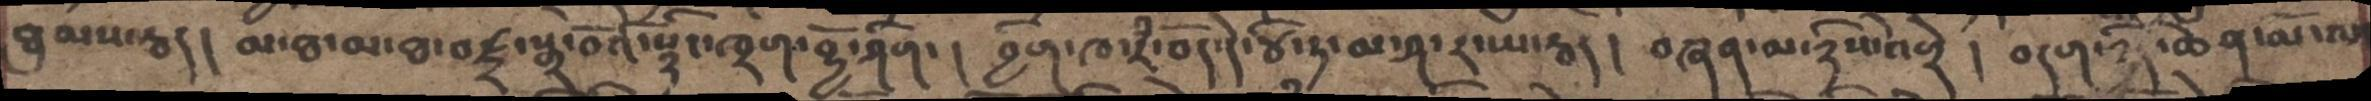ཐུམས་རྦད་། མ་ཐ་མ་ཐ་བཛྲ་སྒྲ་བོའི་སྙིང་ཁྲག་བྷྱོ་ཤིག་། བྱིག་ཁ་རྃ་བོད་དེ་ཙི་ཏ་མ་ཤ་ར་ཡ་རྦད། བཞན་མ་ཉིས་འགྲེ། བདག་ཉིད་ཆེན་མོ་ལ
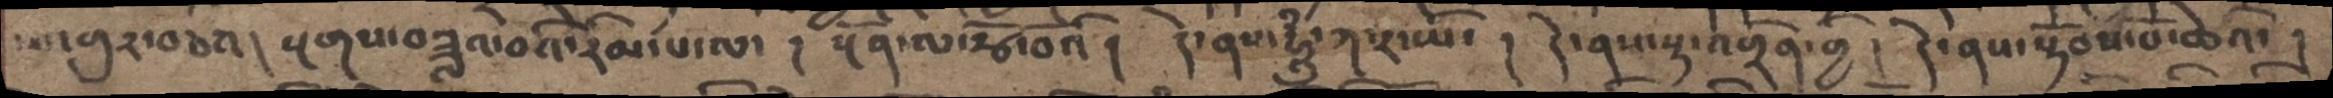འགུར་བཅའ། སྔགས་བཟླའ་བའི་རིམ་པ་ལ་། སྔོན་ལ་རྩོ་བོའི། དེ་ནས་ཧཱུྃ་ཀ་ར་ཡོ་། དེ་ནས་རྟ་འགྲིན་གྱི ། དེ་ནས་སྟོབས་པོ་ཆེའི་།
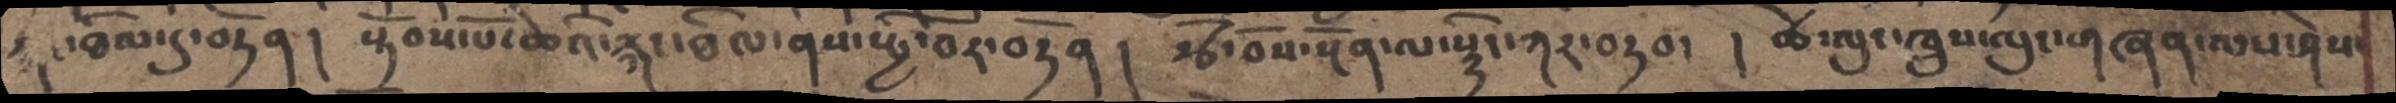རྐང་ཐིལ་དུ་བཏོན། སྟོབས་པོ་ཆེའི་རྐང་ཐིལ་ནས་སྤྱི་བོར་བཏོན ། རྩེ་བོས་སྔོན་ལ་སྙིང་ཀར་བཏབ་ ། ཚེ་ལུང་ཁྲུས་ལུང་གཞན་ལས་ཤེས་
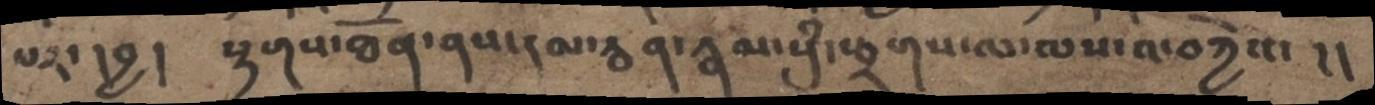པར་དབྱ།   རྟགས་ཐོན་ནས་དམ་ཅན་རྣམ་སུཾ་སྦྲགས་ལ་ལས་འ་བཀྱེས་ །།
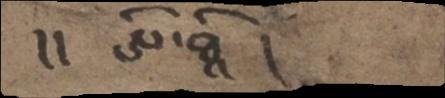།།  ཨི་ཐཱི །
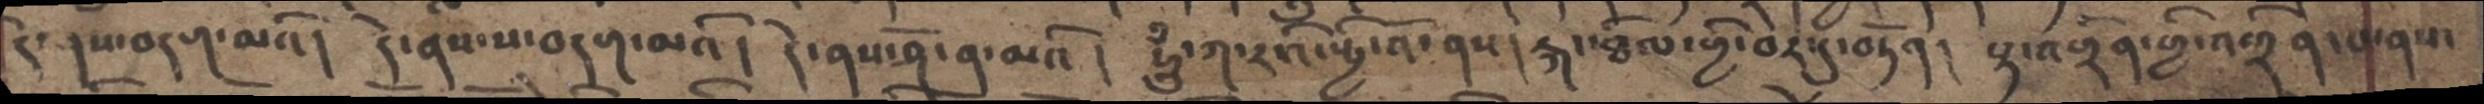དེ་ནས་བདག་མའི །  དེ་ནས་ས་བདག་མའོ ། དེ་ནས་ཤོ་ན་མའི ། ཧཱུཾ་ཀ་ར་འི་སྤྱི་བོ་ནས ། རྐང་ཐིལ་གྱི་བར་དུ་བཏོན ། རྟ་འགྲིན་གྱི་འགྲིན་པ་ནས་
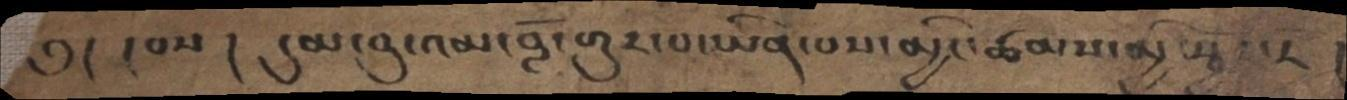༄། །བས། དུམ་བུ་འམ་བློ་གྱུར་པ་ཡིན་པས་མྱིང་ཚམས་མྱི་སྦྱོར་རོ།
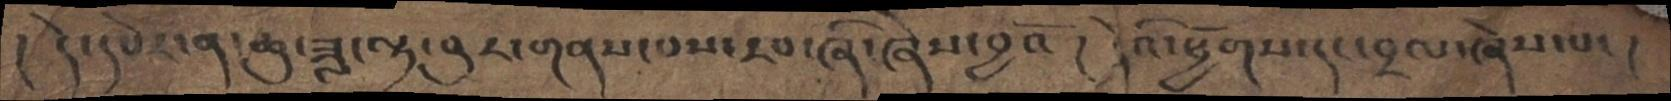། དེ་དཔེར་ན་ཆུ་ཟླ་ལྟ་བུར་གནས་པས་རབ་ཞི་ཞེས་བྱའོ ། དེའི་ཕྱོགས་དང་བྲལ་ཞེས་པ་ །
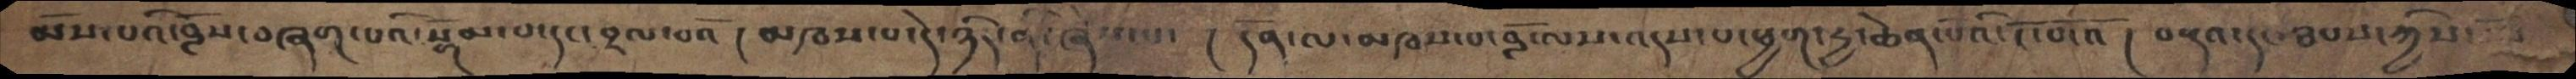མོས་པའི་བློས་བཞག་པའི་སྒོམ་པ་དང་བྲལ་བའོ ། མཁས་པ་དེ་ཉིད་ནི་ཞེས་པ་ ། དོན་ལ་མཁས་པ་བློ་ལས་འདས་པ་ཕྱག་རྒྱ་ཆེན་པོའི་ངོ་བོ་འོ ། བརྡའ་དང་ཐབས་ཀྱིས་
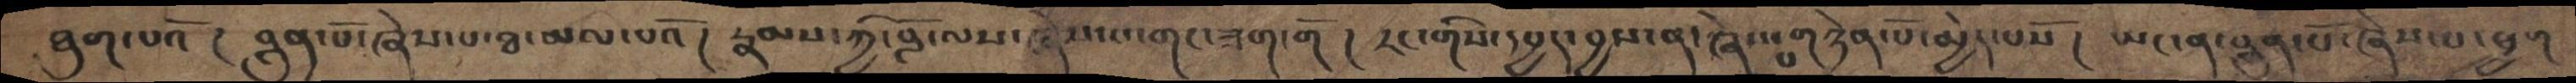ཐུག་པའོ ། བླུན་པོ་ཞེས་པ་ཐ་མལ་པའོ། རྣམས་ཀྱི་བློ་ལས་ཞེས་པ་གང་ཟག་གོ ། རང་གིས་དཔྱད་བྱས་ན་ཞེས་པ་གཉེན་པོ་མྱེད་པསོ ། ཡང་ན་བླུན་པོ་ཞེས་པ་ཕྱག
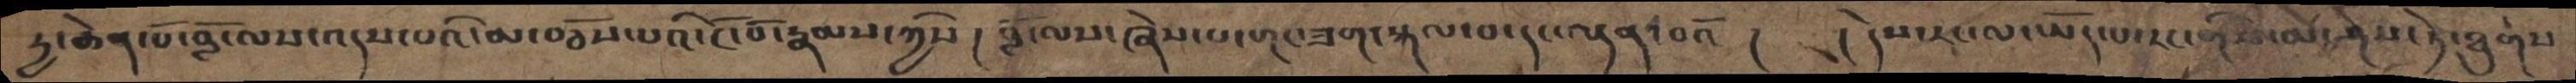དྱ་ཆེན་པོ་བློ་ལས་འདས་པའི་མ་བཅོས་པའི་ངོ་བོ་རྣམས་ཀྱིས། བློ་ལས་ཞེས་པ་གང་ཟག་སྐལ་བ་དང་ལྡན་པའོ །   ། དེས་རང་ལ་ཡོད་པ་རང་གིས་མ་ཤེས་ཏེ་ཐུགས
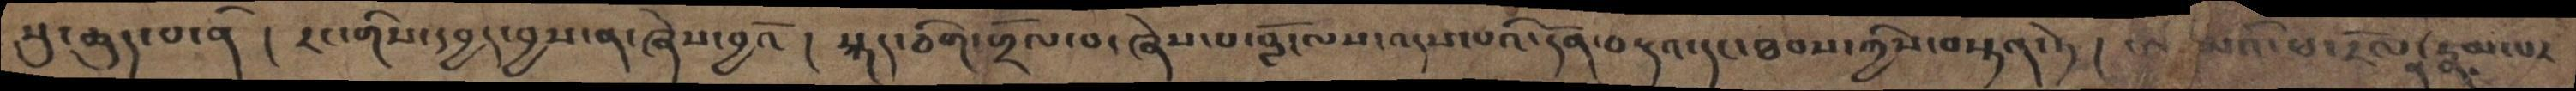སུ་ཆུད་པ་ནི། རང་གིས་དབྱད་བྱས་ན་ཞེས་བྱའོ། སྐད་ཅིག་གྲོལ་བ་ཞེས་པ་བློ་ལས་འདས་པའི་དོན་བརྡའ་དང་ཐབས་ཀྱིས་བསྟན་ཏེ། ཨ་མའི་ཕ་རོལ་ན་རྣམ་པར་
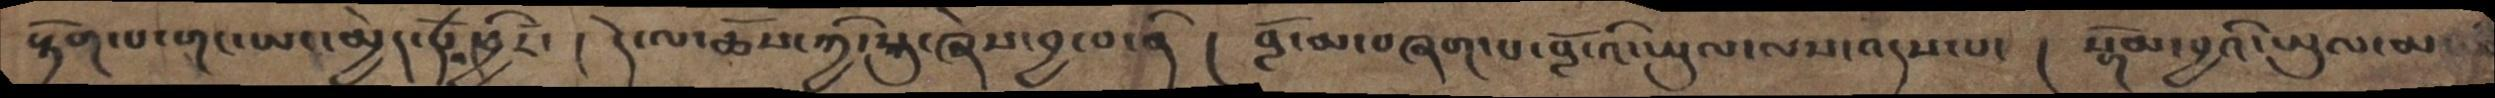རྟོག་པ་གང་ཡང་མྱེད་དོ་ཕྱིར་། དེ་ལ་ཆོས་ཀྱི་སྐུ་ཞེས་བྱ་བ་ནི། བློ་མ་བཞག་པ་བློ་འི་ཡུལ་ལས་འདས་པ་། སྒོམ་བྱའི་ཡུལ་མ
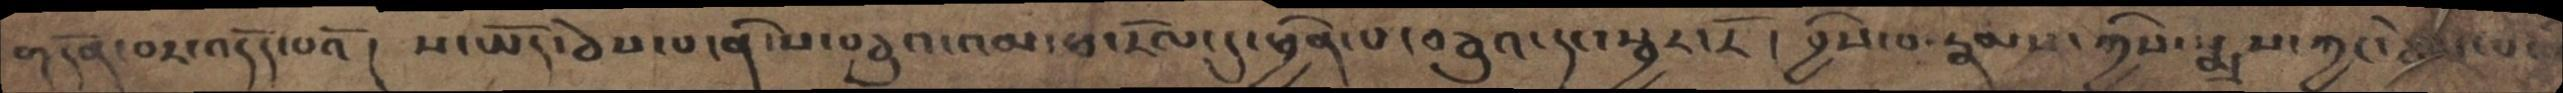གདོན་བར་འདོད་པའོ ། ས་ཡོད་ཅེས་པ་ནི་ས་བཅུའ་འམ་ཕ་རོལ་དུ་ཕྱིན་པ་བཅུའ་དང་སྦྱར་རོ ། བྱིས་བ་རྣམས་ཀྱིས་སྨྲས་ཀྱང་ཅེས་པ་
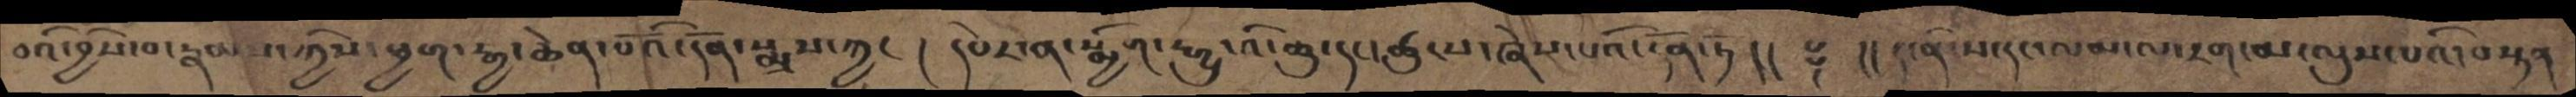བའི་བྱིས་བ་རྣམས་ཀྱིས་ཕྱག་རྒྱ་ཆེན་པོའི་དོན་སྨྲས་ཀྱང །དཔེར་ན་སྨྱིག་རྒྱུ་འི་ཆུ་དང་ཚུངས་ཞེས་པའི་དོན་ཏོ།།   ༈  །།ད་ནི་ས་དང་ལམ་ལ་རག་མ་ལུས་པའི་བསྟན
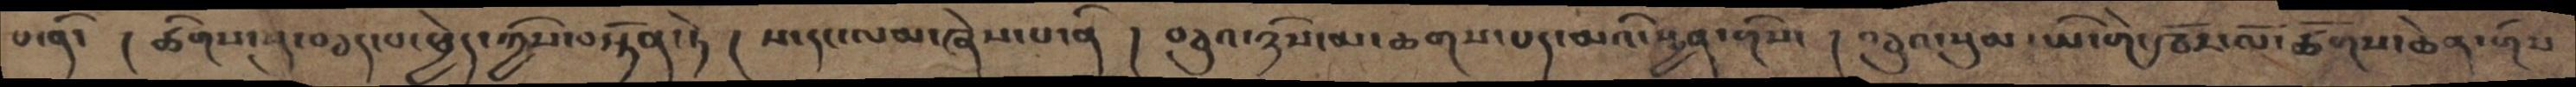པ་ནི་  །ཚིགས་སུ་བཅད་པ་ཕྱེད་ཀྱིས་བསྟོན་ཏེ ། ས་དང་ལམ་ཞེས་པ་ནི  །  བཅུའ་ཉིས་མ་ཆགས་པད་མའི་སྤྱན་གིས་ ། བཅུའ་སུམ་ཡི་གེ་ཁོར་ལོ་ཚོགས་ཆེན་གིས
